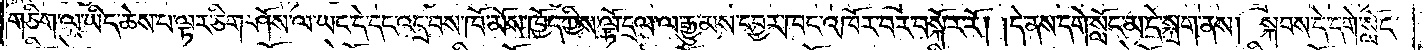གཅིག་ལ་ཡིད་ཆེས་པ་ལྟར་ཅིག་ཤོས་ལ་ཡང་དེ་དང་འདྲ་བས་ཁོ་མོས་ཁྱོད་ཀྱིས་ལྟོ་དྲལ་ལ་རྒྱུ་མས་དབྱར་ཁང་འཁོར་བར་བསྐོར་རོ། །དེ་ནས་དགེ་སློང་མ་དེ་སྐྲག་ནས། སྐབས་དེ་དགེ་སློང་
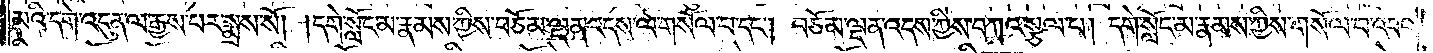མའི་དགེ་འདུན་ལ་རྒྱས་པར་སྨྲས་སོ། །དགེ་སློང་མ་རྣམས་ཀྱིས་བཅོམ་ལྡན་འདས་ལ་གསོལ་པ་དང༌། བཅོམ་ལྡན་འདས་ཀྱིས་བཀའ་སྩལ་པ། དགེ་སློང་མ་རྣམས་ཀྱིས་གསོལ་བ་འབའ་
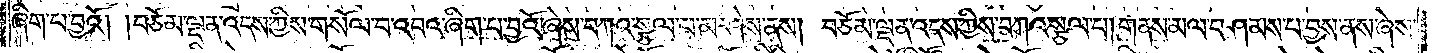ཞིག་པ་བྱའོ། །བཅོམ་ལྡན་འདས་ཀྱིས་གསོལ་བ་འབའ་ཞིག་པ་བྱའོ་ཞེས་བཀའ་སྩལ་པ་མ་ཤེས་ནས། བཅོམ་ལྡན་འདས་ཀྱིས་བཀའ་སྩལ་པ། གནས་མལ་བཤམས་པ་བྱས་ནས་ཞེས་
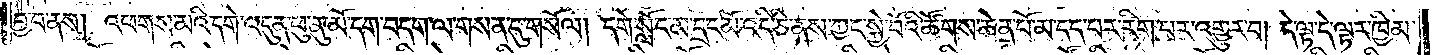བྱ་བ་ནས། འཕགས་མའི་དགེ་འདུན་ཕུ་ནུ་མོ་དག་བདག་ལ་གསན་དུ་གསོལ། དགེ་སློང་མ་དྲང་མོ་འདི་ཅི་ནས་ཀྱང་སྐྱེ་བོའི་ཚོགས་ཆེན་པོ་མ་དད་པར་རིག་པར་འགྱུར་བ། དེ་ལྟ་དེ་ལྟར་ཁྱིམ་
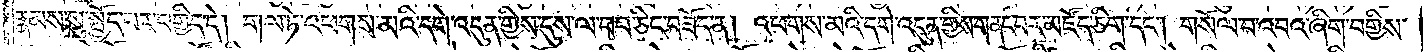རྣམས་སུ་སྤྱོད་པར་བགྱིད་དེ། གལ་ཏེ་འཕགས་མའི་དགེ་འདུན་གྱིས་དུས་ལ་བབ་ཅིང་བཟོད་ན། འཕགས་མའི་དགེ་འདུན་གྱིས་གནང་བར་མཛོད་ཅིག་དང༌། གསོལ་བ་འབའ་ཞིག་བགྱིས་
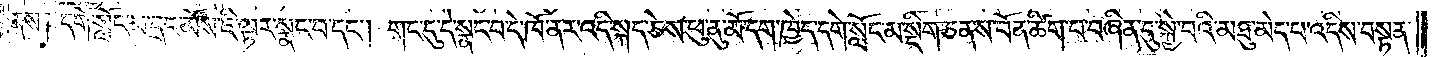ནས༑ དགེ་སློང་མ་དྲང་མོས་ཇི་ལྟར་སྣང་བ་དང༌། གང་དུ་དེ་སྣང་བ་དེ་ཁོ་ནར་འདི་སྐད་ཅེས་ཕུ་ནུ་མོ་དག་ཁྱེད་དགེ་སློང་མ་སྡིག་ཅན་ས་བོན་ཚིག་པ་བཞིན་དུ་སྐྱེ་བའི་མཐུ་མེད་པ་འདིས་བསྟན་
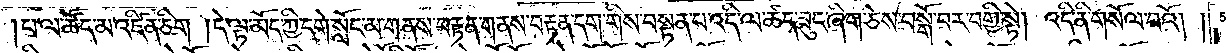།པ་ལ་ཚོད་མ་འཛིན་ཅིག །དེ་ལྟ་མོད་ཀྱི་དགེ་སློང་མ་གནས་བརྟན་གནས་བརྟན་དག་གིས་བསྟན་པ་འདི་ལ་ཚད་ཟུང་ཞིག་ཅེས་བསྒོ་བར་བགྱི་སྟེ། འདི་ནི་གསོལ་བའོ། །
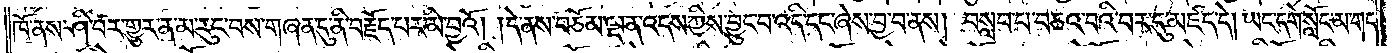ཁོ་ནས་ཤི་བར་གྱུར་ན་མ་རུང་བས་གཞན་དུ་ནི་བརྗོད་པར་མི་བྱའོ། །དེ་ནས་བཅོམ་ལྡན་འདས་ཀྱིས་བྱུང་བ་འདི་དང་ཞེས་བྱ་བ་ནས། བསླབ་པ་བཅའ་བའི་བར་དུ་མཛད་དེ། ཡང་དགེ་སློང་མ་གང་
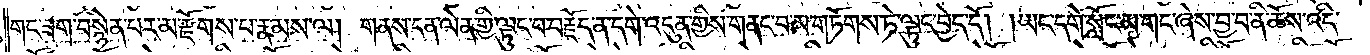གང་ཟག་བསྙེན་པར་མ་རྫོགས་པ་རྣམས་ལ། གནས་ངན་ལེན་གྱི་ལྟུང་བ་བརྗོད་ན་དགེ་འདུན་གྱིས་གནང་བ་མ་གཏོགས་ཏེ་ལྟུང་བྱེད་དོ། །ཡང་དགེ་སློང་མ་གང་ཞེས་བྱ་བ་ནི་ཆོས་འདི་
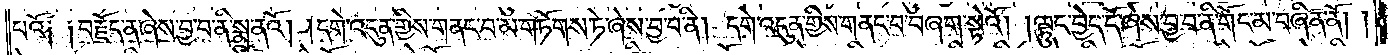པའོ༑ ༑བརྗོད་ན་ཞེས་བྱ་བ་ནི་སྨྲ་ནའོ། །དགེ་འདུན་གྱིས་གནང་བ་མ་གཏོགས་ཏེ་ཞེས་བྱ་བ་ནི། དགེ་འདུན་གྱིས་གནང་བ་བཞག་སྟེའོ། །ལྟུང་བྱེད་དོ་ཞེས་བྱ་བ་ནི་གོང་མ་བཞིན་ནོ། །
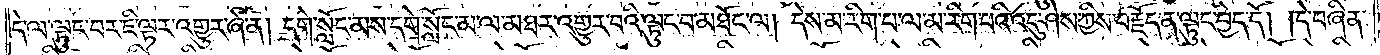དེ་ལ་ལྟུང་བར་ཇི་ལྟར་འགྱུར་ཞེ་ན། དགེ་སློང་མས་དགེ་སློང་མ་ལ་མཐར་འགྱུར་བའི་ལྟུང་བ་མཐོང་ལ། དེས་མ་རིག་པ་ལ་མ་རིག་པའི་འདུ་ཤེས་ཀྱིས་བརྗོད་ན་ལྟུང་བྱེད་དོ། །དེ་བཞིན་
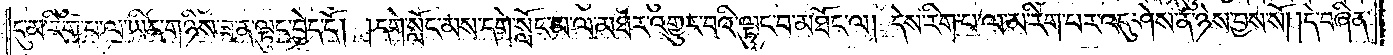དུ་མ་རིག་པ་ལ་ཡིད་གཉིས་ཟ་ན་ལྟུང་བྱེད་དོ། །དགེ་སློང་མས་དགེ་སློང་མ་ལ་མཐར་འགྱུར་བའི་ལྟུང་བ་མཐོང་ལ། དེས་རིག་པ་ལ་མ་རིག་པར་འདུ་ཤེས་ན་ཉེས་བྱས་སོ། །དེ་བཞིན་
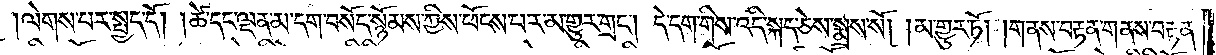ལེགས་པར་སྤྱད་དོ། །ཚེ་དང་ལྡན་མ་དག་བསོད་སྙོམས་ཀྱིས་ཕོངས་པར་མ་གྱུར་གྲང༌། དེ་དག་གིས་འདི་སྐད་ཅེས་སྨྲས་སོ། །མ་གྱུར་ཏོ། །གནས་བརྟན་གནས་བརྟན་
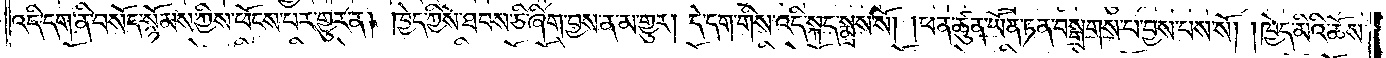འདི་དག་ནི་བསོད་སྙོམས་ཀྱིས་ཕོངས་པར་གྱུར་ན། ཁྱེད་ཀྱིས་ཐབས་ཅི་ཞིག་བྱས་ན་མ་གྱུར། དེ་དག་གིས་འདི་སྐད་སྨྲས་སོ། །ཕན་ཚུན་ཡོན་ཏན་བསྒྲགས་པ་བྱས་པས་སོ། །ཁྱེད་མིའི་ཆོས་
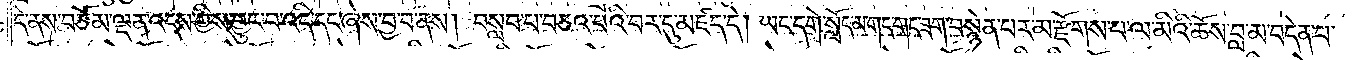དེ་ནས་བཅོམ་ལྡན་འདས་ཀྱིས་བྱུང་བ་འདི་དང་ཞེས་བྱ་བ་ནས། བསླབ་པ་བཅའ་བའི་བར་དུ་མཛད་དེ། ཡང་དགེ་སློང་མ་གང་གང་ཟག་བསྙེན་པར་མ་རྫོགས་པ་ལ་མིའི་ཆོས་བླ་མ་བདེན་པ་
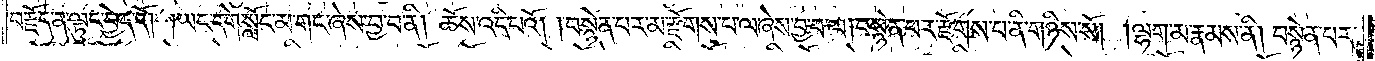བརྗོད་ན་ལྟུང་བྱེད་དོ། །ཡང་དགེ་སློང་མ་གང་ཞེས་བྱ་བ་ནི། ཆོས་འདི་པའོ། །བསྙེན་པར་མ་རྫོགས་པ་ལ་ཞེས་བྱ་བ་ལ། བསྙེན་པར་རྫོགས་པ་ནི་གཉིས་སོ། །ལྷག་མ་རྣམས་ནི། བསྙེན་པར་
